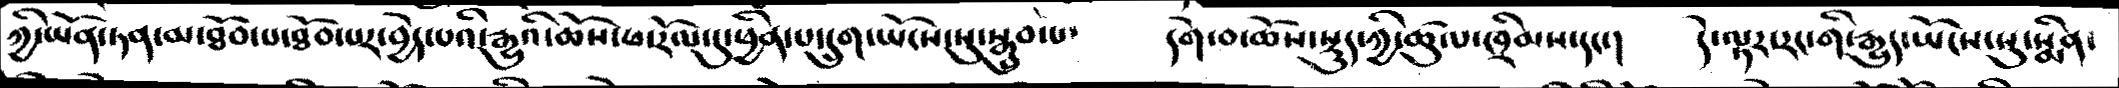ཀྱི་ཡོ་ཾན་ཏན་མ་ཐོབ་པ་ཐོབ་པར་བྱེད་པའི་རྒྱུའི་ཆོས་ཕ་རོལ་དུ་ཕྱིན་པ་དྲུག་ཡོངས་སུ་སྒྲུབ་པ་   དགེ་བ་ཆོས་སྡུད་ཀྱི་ཚུལ་ཁྲིམས་དང་།   དེ་ལྟར་རང་གི་རྒྱུད་ཡོངས་སུ་སྨིན་
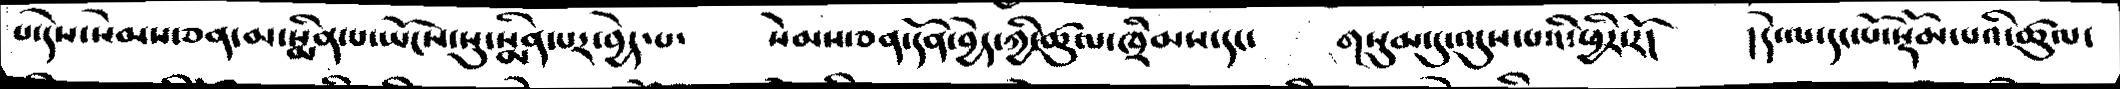པ་དེས་སེམས་ཅན་མ་སྨིན་པ་ཡོངས་སུ་སྨིན་པར་བྱེད་པ་   སེམས་ཅན་དོན་བྱེད་ཀྱི་ཚུལ་ཁྲིམས་དང་   གསུམ་དུ་འདུས་པའི་ཕྱིར་རོ།   །དེ་ལ་དང་པོ་སྡོམ་པའི་ཚུལ་
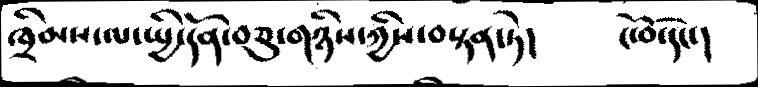ཁྲིམས་ལ་སྤྱི་དོན་བཅུ་གཉིས་ཀྱིས་བསྟན་ཏེ།   ངོ་བོ་དང་།
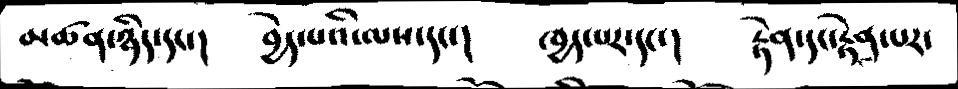མཚན་ཉིད་དང་།   བྱེད་པའི་ལས་དང་།   ཁྱད་པར་དང་།   རྟེན་དང་རྟེན་པར་
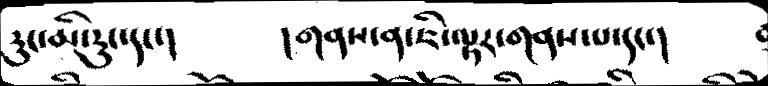རུང་མི་རུང་དང་།    །གནས་ན་ཇི་ལྟར་གནས་པ་དང་།
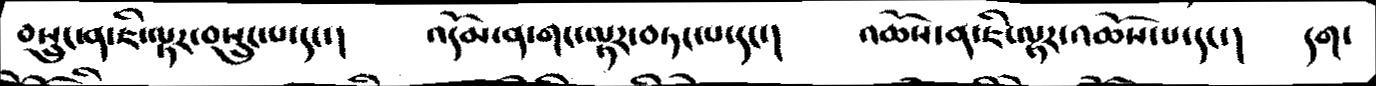བསྲུང་ན་ཇི་ལྟར་བསྲུང་པ་དང་།  འདོམ་ན་གང་ལྟར་བཏང་པ་དང་།   འཆོས་ན་ཇི་ལྟར་འཆོས་པ་དང་།   དག་
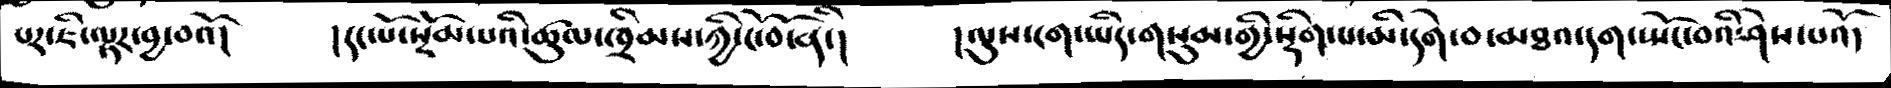པར་ཇི་ལྟར་བྱ་བའོ་།   །དང་པོ་སྡོམ་པའི་ཚུལ་ཁྲིམས་ཀྱི་ངོ་བོ་ནི་།   །ལུས་ངག་ཡིད་གསུམ་གྱི་སྡིག་པ་མི་དགེ་བ་མཐའ་དག་སྤོང་བའི་ཤེས་པའོ།
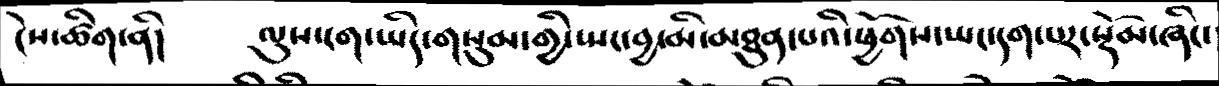ངེས་ཚིག་ནི།   ལུས་ངག་ཡིད་གསུམ་གྱི་སྤང་བྱ་མི་མཐུན་པའི་ཕྱོགས་ཡང་དག་པར་སྡོམ་ཞིང་
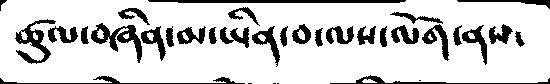ཚུལ་བཞིན་མ་ཡིན་བ་ལས་ལོག་ནས་
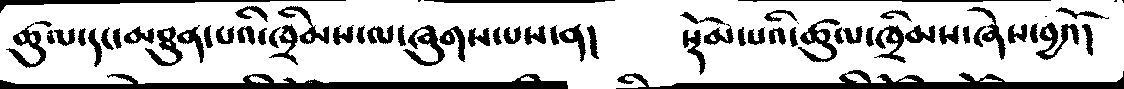ཚུལ་དང་མཐུན་པའི་ཁྲིམས་ལ་ཞུགས་པས་ན།   སྡོམ་པའི་ཚུལ་ཁྲིམས་ཞེས་བྱའོ།
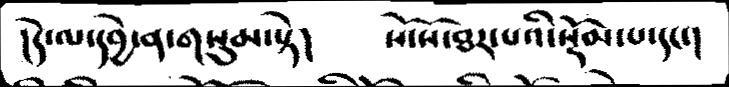།དེ་ལ་དབྱེ་ན་གསུམ་སྟེ།   སོ་སོ་ཐར་པའི་སྡོམ་པ་དང་།
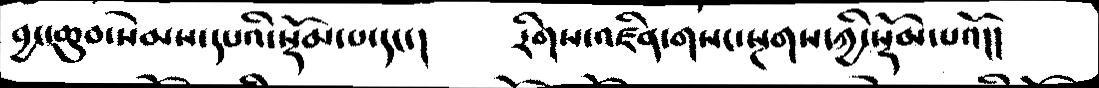བྱང་ཆུབ་སེམས་དཔའི་སྡོམ་པ་དང་།   རིགས་འཛིན་གསང་སྔགས་ཀྱི་སྡོམ་པའོ།།
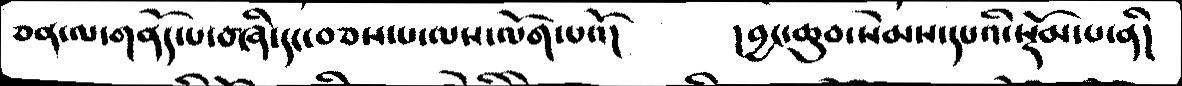ཅན་ལ་གནོད་པ་བཞི་དང་བཅས་པ་ལས་ལོག་པའོ།    །བྱང་ཆུབ་སེམས་དཔའི་སྡོམ་པ་ནི།
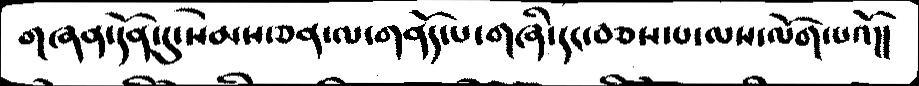གཞན་དོན་དུ་སེམས་ཅན་ལ་གནོད་པ་གཞི་དང་བཅས་པ་ལས་ལོག་པའོ།།
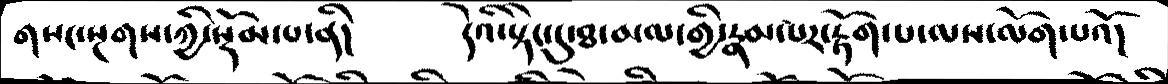གསང་སྔགས་ཀྱི་སྡོམ་པ་ནི།   དེའི་སྟེང་དུ་ཐ་མལ་གྱི་རྣམ་པར་རྟོག་པ་ལས་ལོག་པའོ།
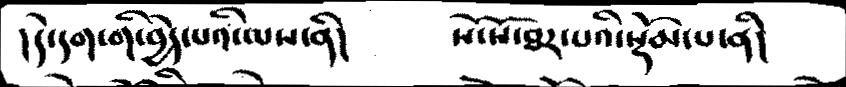།དེ་དག་གི་བྱེད་པའི་ལས་ནི།   སོ་སོ་ཐར་པའི་སྡོམ་པ་ནི།
